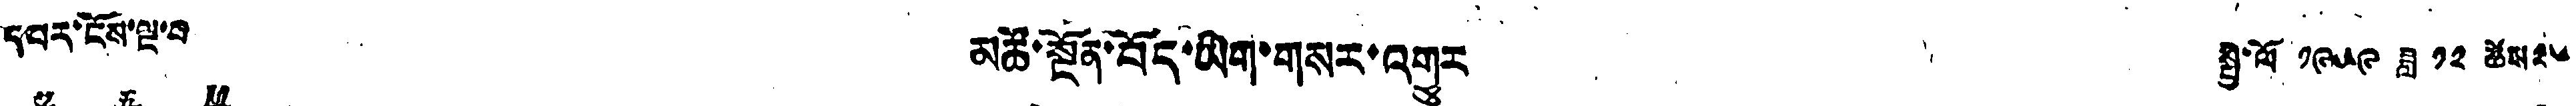དཔར་ངོས་སྔ་པ། མཚོ་སྔོན་བོད་ཡིག་གསར་འགྱུར སྤྱི་ལོ ༡༩༥༩ ཟླ ༡༢ ཚེས ༢༦
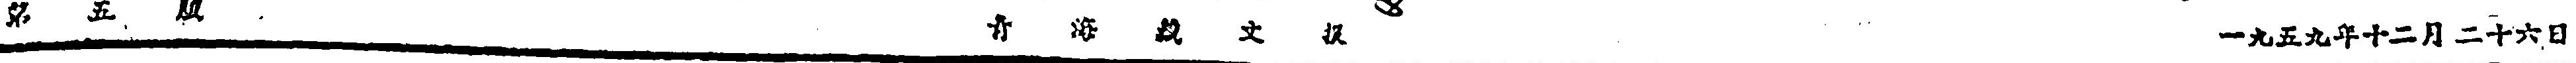第 五 版 青 海 藏 文 报 一九五九年十二月二十六日
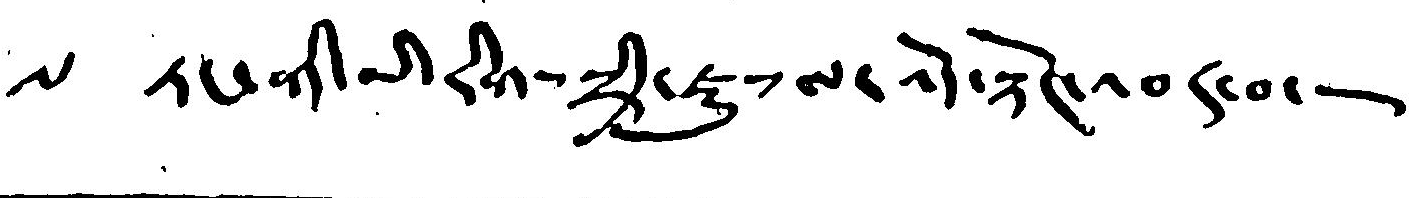༧ ཏང་ནི་མི་རིགས་སྲིད་ཇུས་ལ་འོད་སྟོང་འབར་བ།
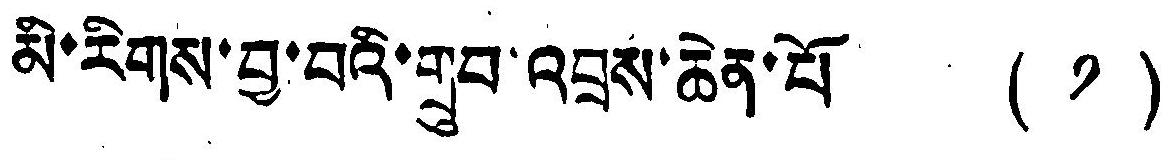མི་རིགས་བྱ་བའི་གྲུབ་འབྲས་ཆེན་པོ ( ༡ )
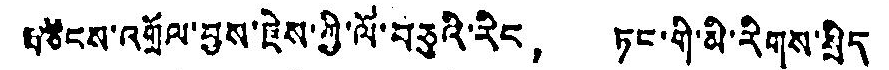བཅིངས་འགྲོལ་བྱས་རྗེས་ཀྱི་ལོ་བཅུའི་རིང， ཏང་གི་མི་རིགས་སྲིད་
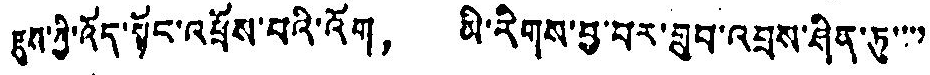ཇུས་ཀྱི་འོད་སྟོང་འཕྲོས་པའི་འོག， མི་རིགས་བྱ་བར་གྲུབ་འབྲས་ཤིན་ཏུ་་་་་
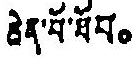ཆེན་པ་ཐོབ。
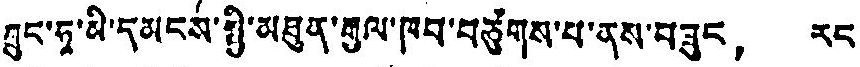ཀྲུང་ཧྭ་མི་དམངས་སྤྱི་མཐུན་རྒྱལ་ཁབ་བཙུགས་པ་ནས་བཟུང， རང་
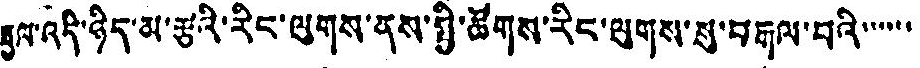རྒྱལ་འདི་ཉིད་མ་རྩའི་རིང་ལུགས་ནས་སྤྱི་ཚོགས་རིང་ལུགས་སུ་བརྒལ་བའི་་་་་་་
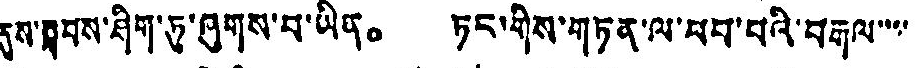དུས་ཐབས་ཤིག་ཏུ་ཞུགས་པ་ཡིན。 ཏང་གིས་གཏན་ལ་བབ་པའི་བརྒལ་་་་་
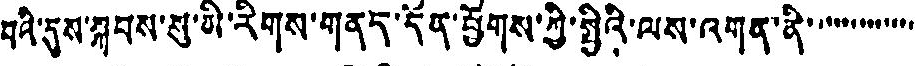བའི་དུས་སྐབས་སུ་མི་རིགས་གནད་དོན་ཕྱོགས་ཀྱི་སྤྱིའི་ལས་འགན་ནི་་་་་་་་་་་་་
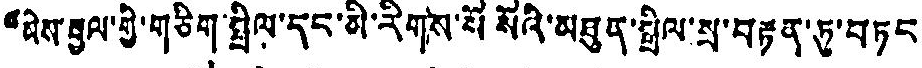“མེས་རྒྱལ་གྱི་གཅིག་སྤྲིལ་དང་མི་རིགས་སོ སོའི་མཐུན་སྒྲིལ་སྲ་བརྟན་ཏུ་བཏང་
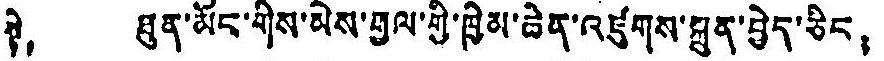སྟེ， ཐུན་མོང་གིས་མེས་རྒྱལ་གྱི་ཁྱིམ་ཆེན་འཛུགས་སྐྲུན་བྱེད་ཅིང；
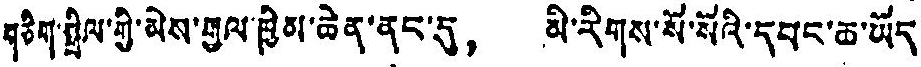གཅིག་སྒྲིལ་གྱི་མེས་རྒྱལ་ཁྱིམ་ཆེན་ནང་དུ， མི་རིགས་སོ་སོའི་དབང་ཆ་ཡོད
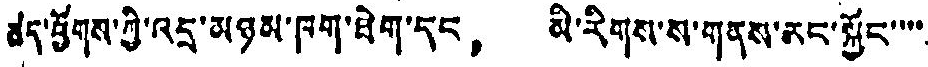ཚད་ཕྱོགས་ཀྱི་འདྲ་མཉམ་ཁག་ཐེག་དང， མི་རིགས་ས་གནས་རང་སྐྱོང་་་་
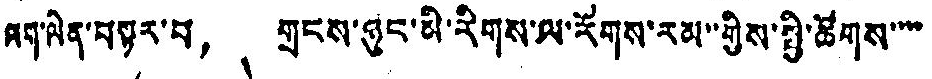ལག་ལེན་བསྟར་བ， གྲངས་ཉུང་མི་རིགས་ལ་རོགས་རམ་གྱིས་སྤྱི་ཚོགས་་་་
